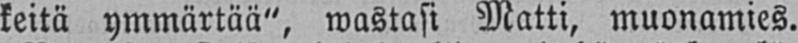keitä ymmärtää", wastasi Matti, muonamies.
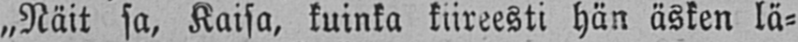„Näit sa, Kaisa, kuinka kiireesti hän äsken lä-
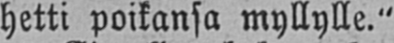hetti poikansa myllylle."
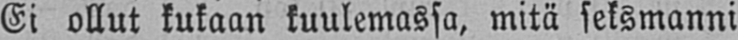Ei ollut kukaan kuulemassa, mitä seksmanni
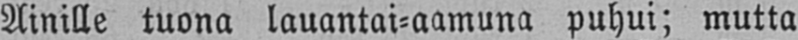Ainille tuona lauantai-aamuna puhui; mutta
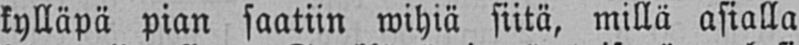kylläpä pian saatiin wihiä siitä, millä asialla
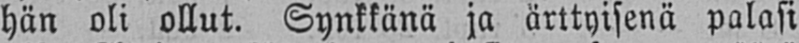hän oli ollut. Synkkänä ja ärttyisenä palasi
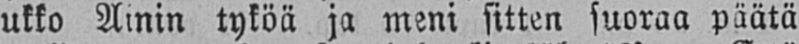ukko Ainin tyköä ja meni sitten suoraa päätä
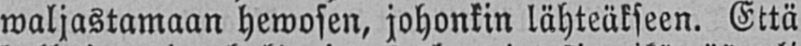waljastamaan hewosen, johonkin lähteäkseen. Että
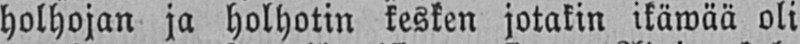holhojan ja holhotin kesken jotakin ikäwää oli
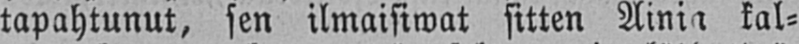tapahtunut, sen ilmaisiwat sitten Ainia kal-
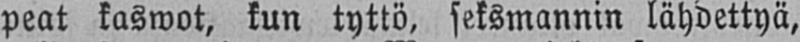peat kaswot, kun tyttö, seksmannin lähdettyä,
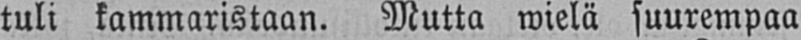tuli kammaristaan. Mutta wielä suurempaa
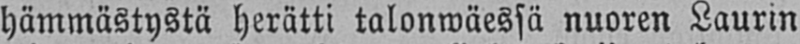hämmästystä herätti talonwäessä nuoren Laurin
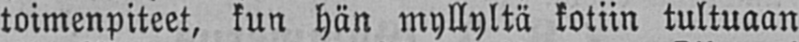toimenpiteet, kun hän myllyltä kotiin tultuaan
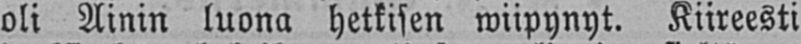oli Ainin luona hetkisen wiipynyt. Kiireesti
